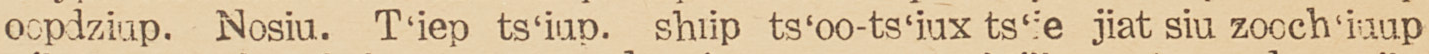oopdziup. Nosiu. T'iep ts'iup. shiip ts'oo-ts'iux ts'ie jiat siu zooch'iuup
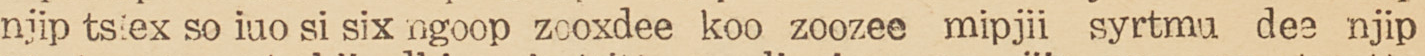njip tsiex so iuo si six ngoop zooxdee koo zoozee mipjii syrtmu dee njip
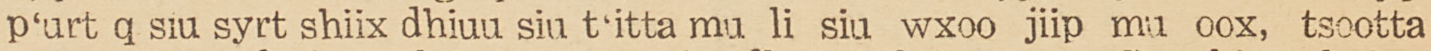p'urt q siu syrt shiix dhiuu siu t'itta mu li siu wxoo jiip mu oox, tsootta
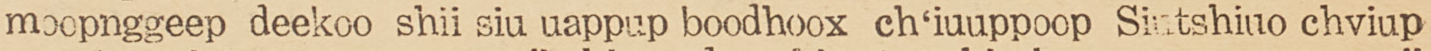moopnggeep deekoo shii siu uappup boodhoox chi'iuuppoop Siutshiuo chviup
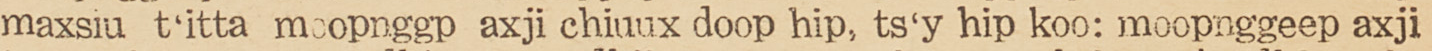maxsiu t'itta moopnggp axji chiuux doop hip, ts'y hip koo: moopnggeep axji
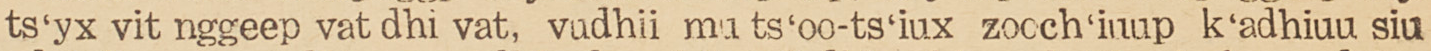ts'yx vit nggeep vat dhi vat, vudhii mu ts'oo-ts'iux zooch'iuup k'adhiuu siu
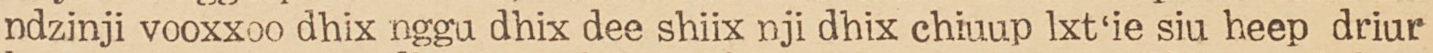ndzinji vooxxoo dhix nggu dhix dee shiix nji dhix chiuup lxt'ie siu heep driur
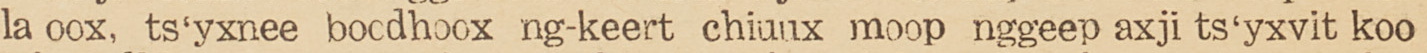la oox, ts'yxnee boodhoox ng-keert chiuux moop nggeep axji ts'yxvit koo
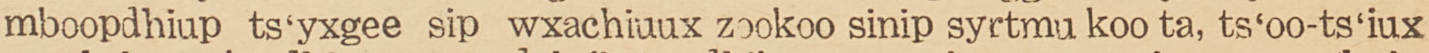mboopdhiup ts'yxgee sip wxachiuux zookoo sinip syrtmu koo ta, ts'oo-ts'iux
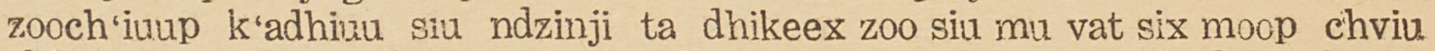zooch'iuup k'adhiuu siu ndzinji ta dhikeex zoo siu mu vat six moop chviu
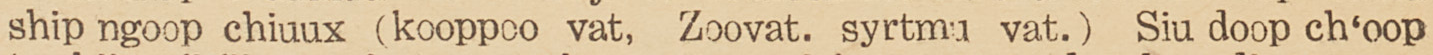ship ngoop chiuux (kooppoo vat, Zoovat. syrtmu vat.) Siu doop ch'oop
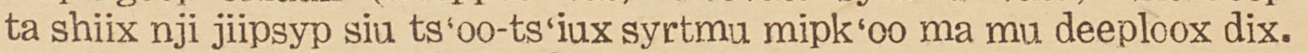ta shiix nji jiipsyp siu ts'oo-ts'iux syrtmu mipk'oo ma mu deeploox dix.
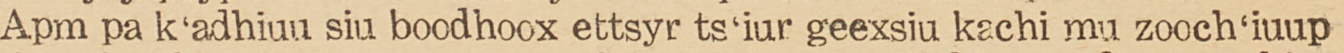Apm pa k'adhiuu siu boodhoox ettsyr ts'iur geexsiu kachi mu zooch'iuup
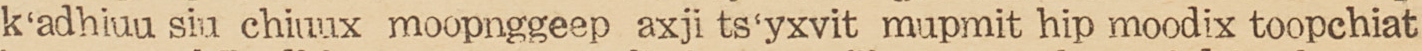k'adhiuu siu chiuux moopnggeep axji ts'yxvit mupmit hip moodix toopchiat
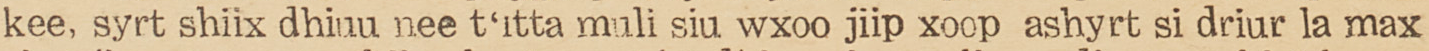kee, syrt shiix dhiuu nee t'itta muli siu wxoo jiip xoop ashyrt si driur la max
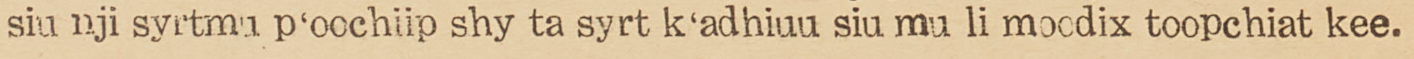siu nji syrtmu p'occhiip shy ta syrt k'adhiuu siu mu li moodix toopchiat kee.
